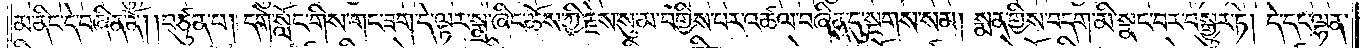མ་ནིང་དེ་བཞིན་ནོ། །བཙུན་པ། དགེ་སློང་གིས་གང་ཟག་དེ་ལྟར་སྨྲ་ཞིང་ཆོས་ཀྱི་རྗེས་སུ་མ་བགྱིས་པར་འཚལ་བཞིན་དུ་སྔགས་སམ། སྨན་གྱིས་བདག་མི་སྣང་བར་བསྒྱུར་ཏེ། དེ་དང་ལྷན་
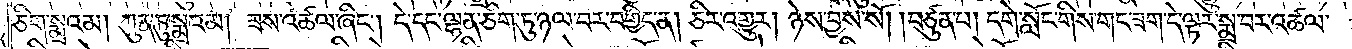ཅིག་སྨྲའམ། ཀུན་ཏུ་སྨྲའམ། ཟས་འཚལ་ཞིང༌། དེ་དང་ལྷན་ཅིག་ཏུ་ཉལ་བར་བགྱིད་ན། ཅིར་འགྱུར། ཉེས་བྱས་སོ། །བཙུན་པ། དགེ་སློང་གིས་གང་ཟག་དེ་ལྟར་སྨྲ་བར་འཚལ་
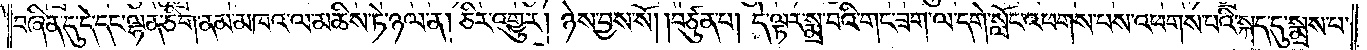བཞིན་དུ་དེ་དང་ལྷན་ཅིག་ནམ་མཁའ་ལ་མཆིས་ཏེ་ཉལ་ན། ཅིར་འགྱུར། ཉེས་བྱས་སོ། །བཙུན་པ། དེ་ལྟར་སྨྲ་བའི་གང་ཟག་ལ་དགེ་སློང་འཕགས་པས་འཕགས་པའི་སྐད་དུ་སྨྲས་པ་
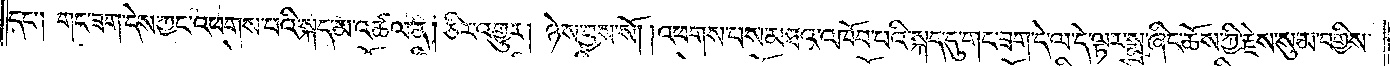དང༌། གང་ཟག་དེས་ཀྱང་འཕགས་པའི་སྐད་མ་འཚལ་ན། ཅིར་འགྱུར། ཉེས་བྱས་སོ། །འཕགས་པས་མཐའ་འཁོབ་པའི་སྐད་དུ་གང་ཟག་དེ་ལ་དེ་ལྟར་སྨྲ་ཞིང་ཆོས་ཀྱི་རྗེས་སུ་མ་བགྱིས་
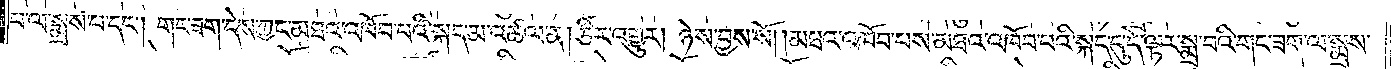པ་ལ་སྨྲས་པ་དང༌། གང་ཟག་དེས་ཀྱང་མཐའ་འཁོབ་པའི་སྐད་མ་འཚལ་ན། ཅིར་འགྱུར། ཉེས་བྱས་སོ། །མཐའ་འཁོབ་པས་མཐའ་འཁོབ་པའི་སྐད་དུ་དེ་ལྟར་སྨྲ་བའི་གང་ཟག་ལ་སྨྲས་
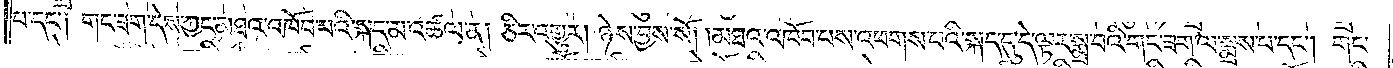པ་དང་༑ གང་ཟག་དེས་ཀྱང་མཐའ་འཁོབ་པའི་སྐད་མ་འཚལ་ན། ཅིར་འགྱུར། ཉེས་བྱས་སོ། །མཐའ་འཁོབ་པས་འཕགས་པའི་སྐད་དུ་དེ་ལྟར་སྨྲ་བའི་གང་ཟག་ལ་སྨྲས་པ་དང༌། གང་
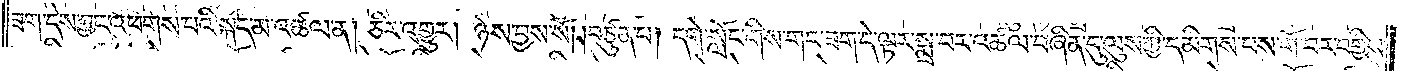ཟག་དེས་ཀྱང་འཕགས་པའི་སྐད་མ་འཚལ་ན། ཅིར་འགྱུར། ཉེས་བྱས་སོ། །བཙུན་པ། དགེ་སློང་གིས་གང་ཟག་དེ་ལྟར་སྨྲ་བར་འཚལ་བཞིན་དུ་ལུས་ཀྱི་དམིགས་པས་གོ་བར་བགྱིས་
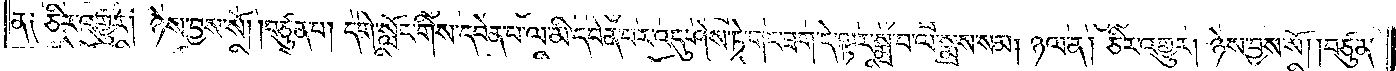ན༑ ཅིར་འགྱུར། ཉེས་བྱས་སོ། །བཙུན་པ། དགེ་སློང་གིས་དབེན་པ་ལ་མི་དབེན་པར་འདུ་ཤེས་ཏེ་གང་ཟག་དེ་ལྟར་སྨྲ་བ་ལ་སྨྲས་སམ། ཉལ་ན། ཅིར་འགྱུར། ཉེས་བྱས་སོ། །བཙུན་
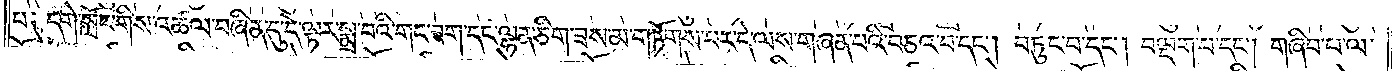པ༑ དགེ་སློང་གིས་འཚལ་བཞིན་དུ་དེ་ལྟར་སྨྲ་བའི་གང་ཟག་དང་ལྷན་ཅིག་ཟས་མ་གཏོགས་པར་དེ་ལས་གཞན་པའི་བཅའ་བ་དང༌། བཏུང་བ་དང༌། བལྡག་པ་དང༌། གཞིབ་པ་ལ་
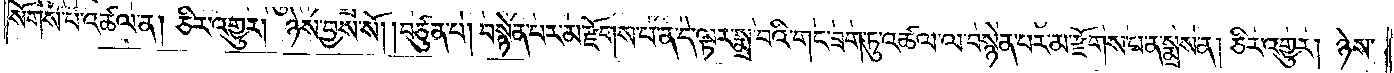སོགས་པ་འཚལ་ན། ཅིར་འགྱུར། ཉེས་བྱས་སོ། །བཙུན་པ། བསྙེན་པར་མ་རྫོགས་པ་ན་དེ་ལྟར་སྨྲ་བའི་གང་ཟག་ཏུ་འཚལ་ལ་བསྙེན་པར་མ་རྫོགས་པ་ན་སྨྲས་ན། ཅིར་འགྱུར། ཉེས་
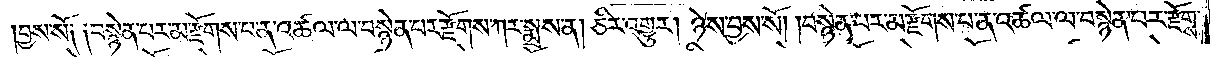བྱས་སོ༑ ༑བསྙེན་པར་མ་རྫོགས་པ་ན་འཚལ་ལ་བསྙེན་པར་རྫོགས་ཀར་སྨྲས་ན། ཅིར་འགྱུར། ཉེས་བྱས་སོ། །བསྙེན་པར་མ་རྫོགས་པ་ན་འཚལ་ལ་བསྙེན་པར་རྫོགས་
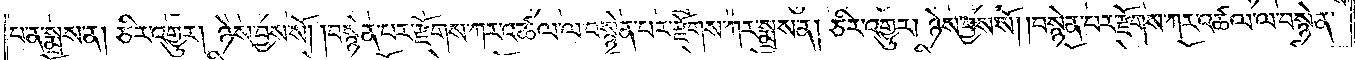པ་ན་སྨྲས་ན། ཅིར་འགྱུར། ཉེས་བྱས་སོ། །བསྙེན་པར་རྫོགས་ཀར་འཚལ་ལ་བསྙེན་པར་རྫོགས་ཀར་སྨྲས་ན། ཅིར་འགྱུར། ཉེས་བྱས་སོ། །བསྙེན་པར་རྫོགས་ཀར་འཚལ་ལ་བསྙེན་
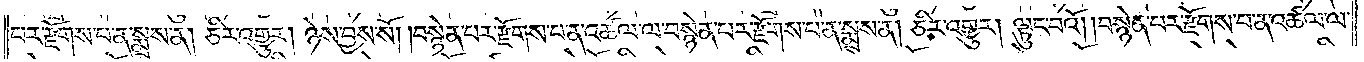པར་རྫོགས་པ་ན་སྨྲས་ན། ཅིར་འགྱུར། ཉེས་བྱས་སོ། །བསྙེན་པར་རྫོགས་པ་ན་འཚལ་ལ་བསྙེན་པར་རྫོགས་པ་ན་སྨྲས་ན། ཅིར་འགྱུར། ལྟུང་བའོ། །བསྙེན་པར་རྫོགས་པ་ན་འཚལ་ལ་
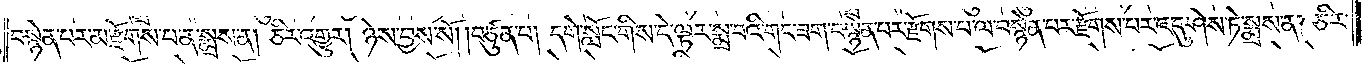བསྙེན་པར་མ་རྫོགས་པ་ན་སྨྲས་ན། ཅིར་འགྱུར། ཉེས་བྱས་སོ། །བཙུན་པ། དགེ་སློང་གིས་དེ་ལྟར་སྨྲ་བའི་གང་ཟག་བསྙེན་པར་རྫོགས་པ་ལ་བསྙེན་པར་རྫོགས་པར་འདུ་ཤེས་ཏེ་སྨྲས་ན། ཅིར་
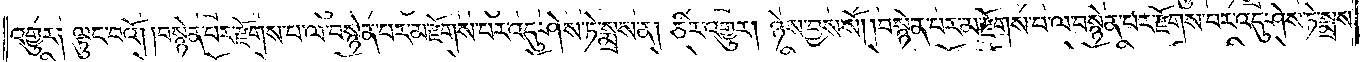འགྱུར༑ ལྟུང་བའོ། །བསྙེན་པར་རྫོགས་པ་ལ་བསྙེན་པར་མ་རྫོགས་པར་འདུ་ཤེས་ཏེ་སྨྲས་ན། ཅིར་འགྱུར། ཉེས་བྱས་སོ། །བསྙེན་པར་མ་རྫོགས་པ་ལ་བསྙེན་པར་རྫོགས་པར་འདུ་ཤེས་ཏེ་སྨྲས་
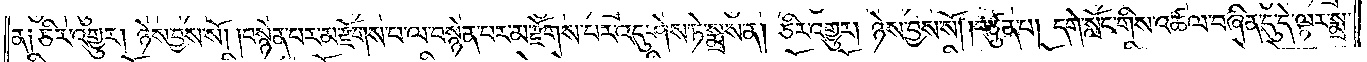ན༑ ཅིར་འགྱུར། ཉེས་བྱས་སོ། །བསྙེན་པར་མ་རྫོགས་པ་ལ་བསྙེན་པར་མ་རྫོགས་པར་འདུ་ཤེས་ཏེ་སྨྲས་ན། ཅིར་འགྱུར། ཉེས་བྱས་སོ། །བཙུན་པ། དགེ་སློང་གིས་འཚལ་བཞིན་དུ་དེ་ལྟར་སྨྲ་
